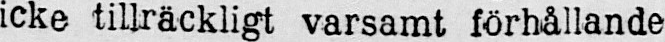icke tillräckligt varsamt förhållande
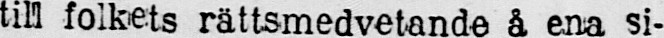till folkets rättsmedvetande å ena si-
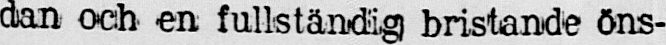dan och en fullständig bristande öns-
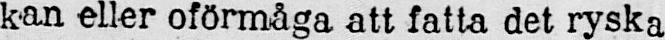kan eller oförmåga att fatta det ryska
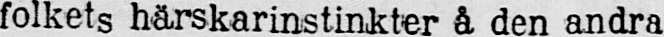folkets härskarinstinkter å den andra
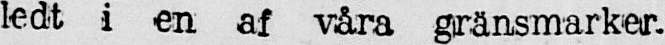ledt i en af våra gränsmarker.
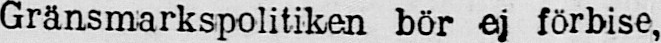Gränsmarkspolitiken bör ej förbise,
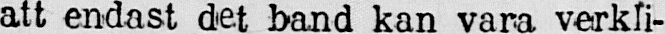att endast det band kan vara verkli-
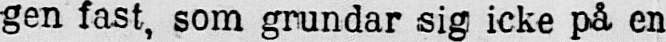gen fast, som grundar sig icke på en
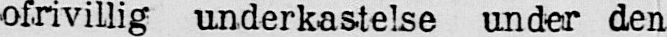ofrivillig underkastelse under den
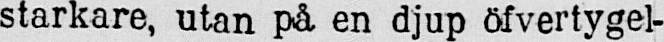starkare, utan på en djup öfvertygel-
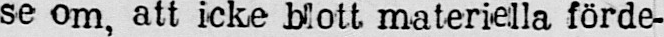se om, att icke blott materiella förde-
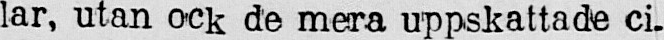lar, utan ock de mera uppskattade ci-
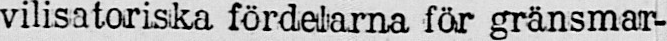vilisatoriska fördelarna för gränsmar-
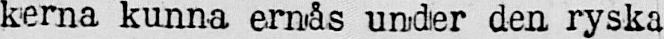kerna kunna ernås under den ryska
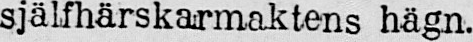själfhärskarmaktens hägn.
